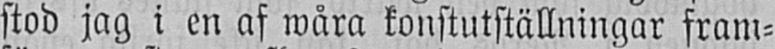stod jag i en af wåra konstutställningar fram-
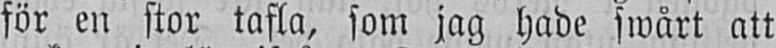för en stor tafla, som jag hade swårt att
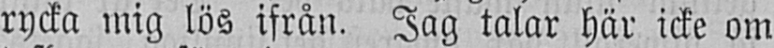rycka mig lös ifrån. Jag talar här icke om
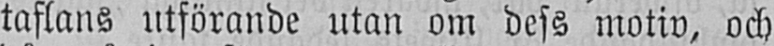taflans utförande utan om dess motiv, och
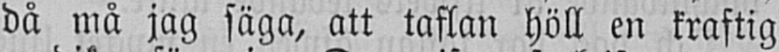då må jag säga, att taflan höll en kraftig
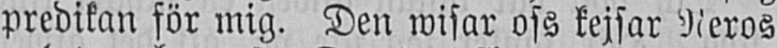predikan för mig. Den wisar oss kejsar Neros
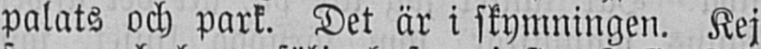palats och park. Det är i skymningen. Kej
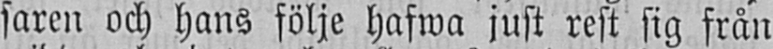saren och hans följe hafwa just rest sig från
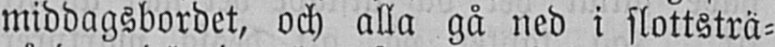middagsbordet, och alla gå ned i slottsträ-
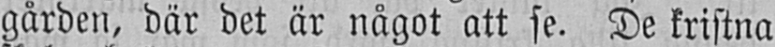gården, där det är något att se. De kristna
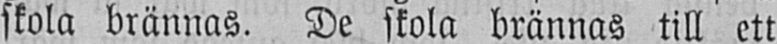skola brännas. De skola brännas till ett
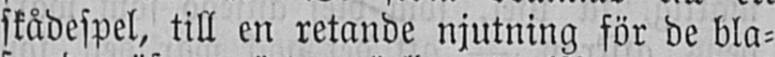skådespel, till en retande njutning för de bla-
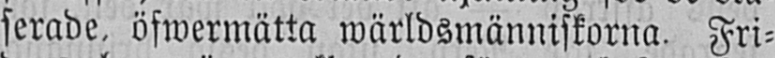serade, öfwermätta wärldsmänniskorna. Fri-
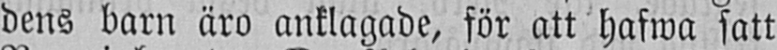dens barn äro anklagade, för att hafwa satt
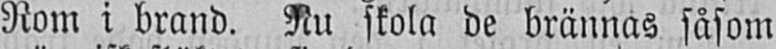Rom i brand. Nu skola de brännas såsom
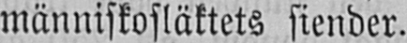människosläktets fiender.
